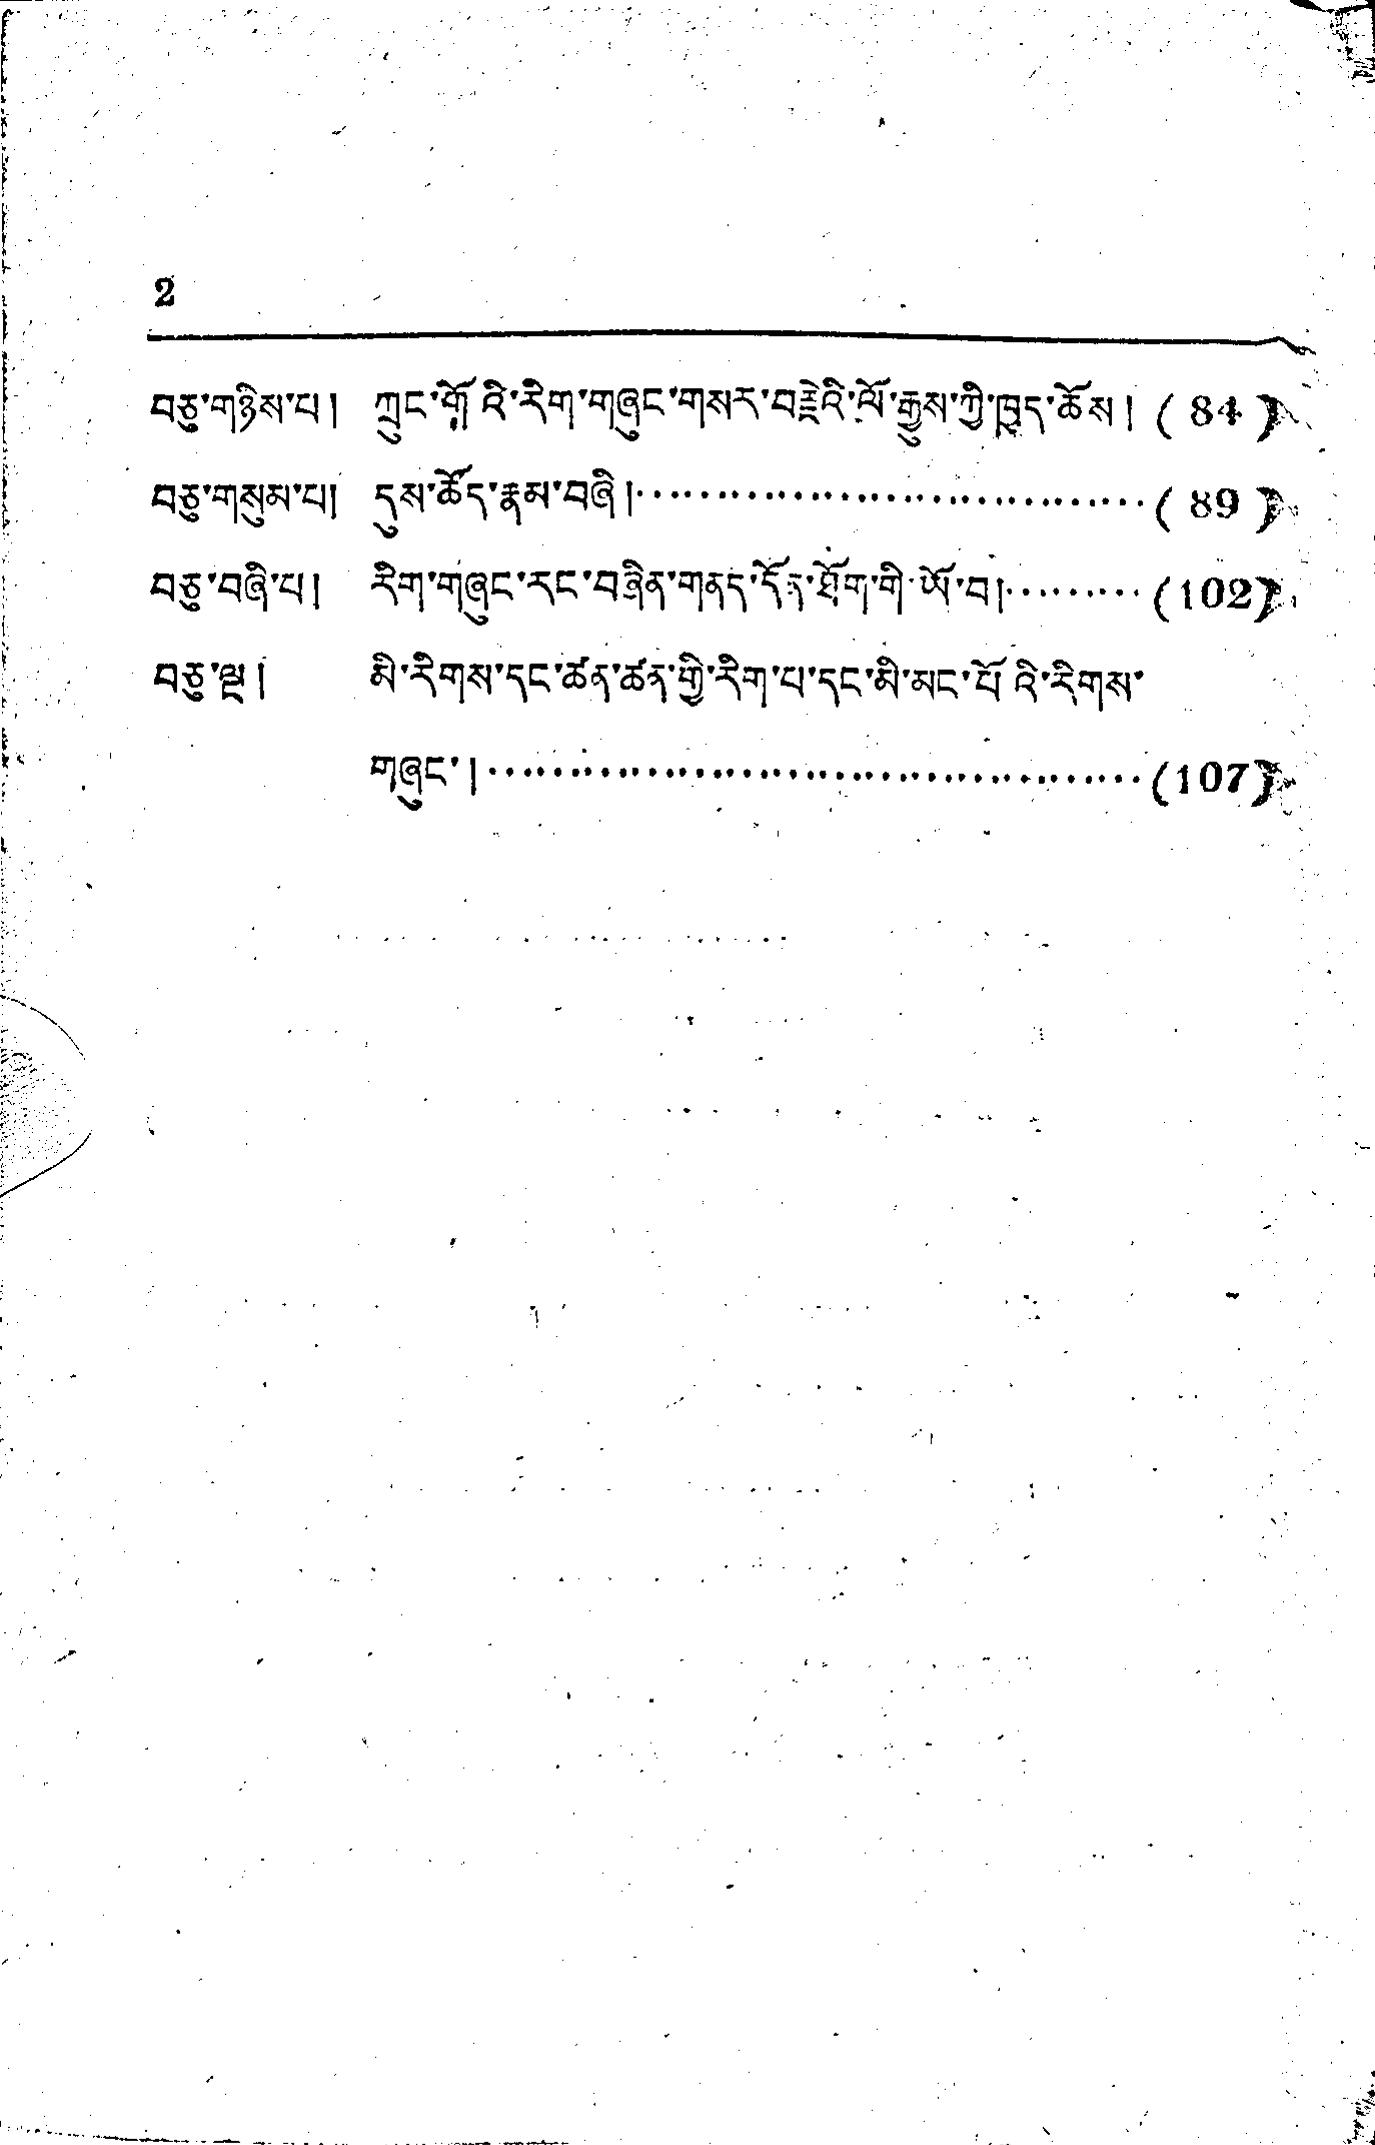2
བཅུ་གཉིས་པ། ཀྲུང་གོའི་རིག་གཞུང་གསར་བརྗེའི་ལོ་རྒྱུས་ཀྱི་ཁྱད་ཆོས།（84）
བཅུ་གསུམ་པ། དུས་ཚོད་རྣམ་བཞི།...............................（89）
བཅུ་བཞི་པ། རིག་གཞུང་རང་བཞིན་གནད་དོན་ཐོག་གི་ཡོ་བ།.........（102）
བཅུ་ལྔ། མི་རིགས་དང་ཚན་ཚན་གྱི་རིག་པ་དང་མི་མང་པོའི་རིགས་
གཞུང་།........................................（107）
